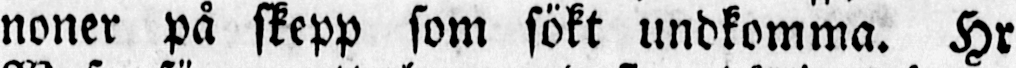noner på skepp som sökt undkomma. Hr
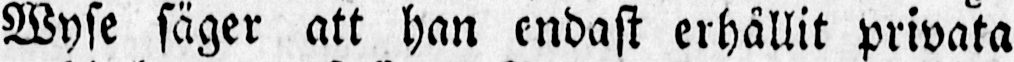Wyse säger att han endast erhållit privata
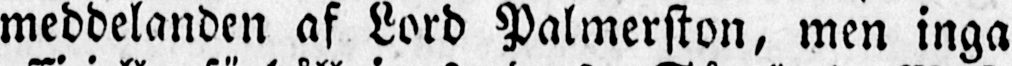meddelanden af Lord Palmerston, men inga
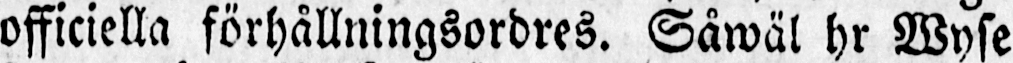officiella förhållningsordres. Såwäl hr Wyse
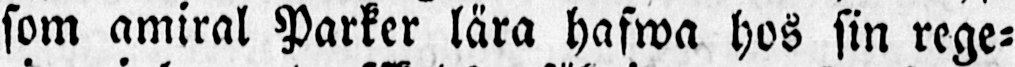som amiral Parker lära hafwa hos sin rege-
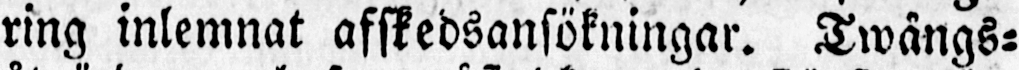ring inlemnat afskedsansökningar. Twångs-
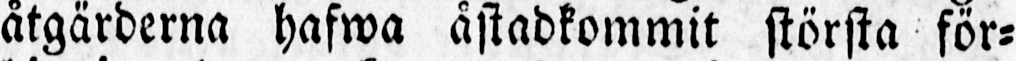åtgärderna hafwa åstadkommit största för-
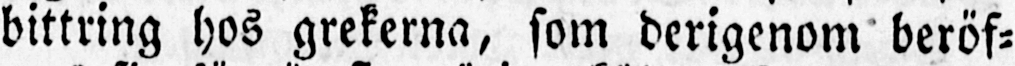bittring hos grekerna, som derigenom beröf-
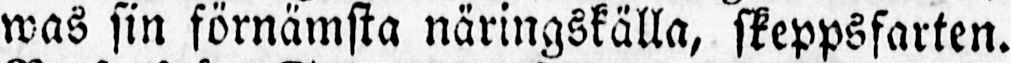was sin förnämsta näringskälla, skeppsfarten.
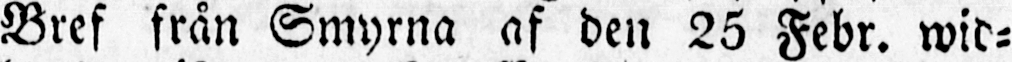Bref från Smyrna af den 25 Febr. wid-
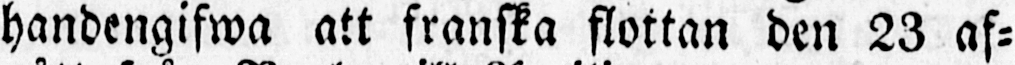handengifwa att franska flottan den 23 af-
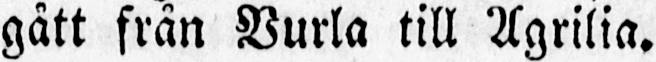gått från Vurla till Agrilia.
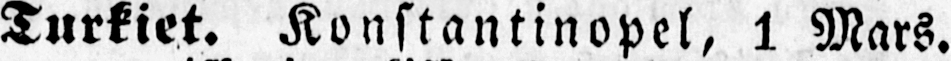Turkiet. Konstantinopel, 1 Mars.
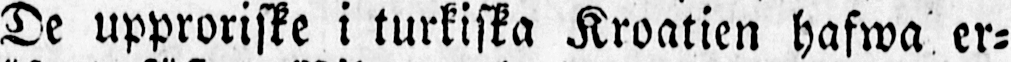De upproriske i turkiska Kroatien hafwa er-
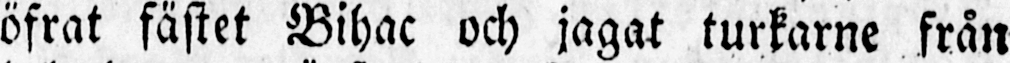öfrat fästet Bihac och jagat turkarne från
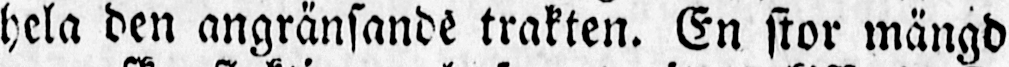hela den angränsande trakten. En stor mängd
